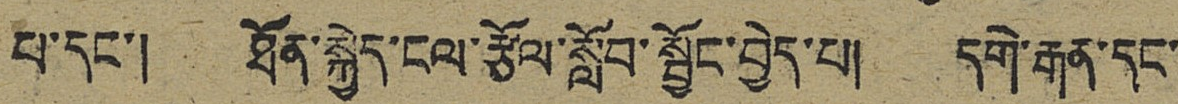པ་དང་། ཐོན་སྐྱེད་ངལ་རྩོལ་སློབ་སྦྱོང་བྱེད་པ། དགེ་རྒན་དང་
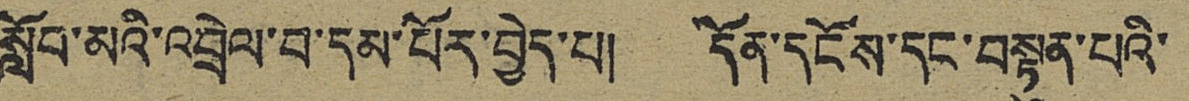སློབ་མའི་འབྲེལ་བ་དམ་པོར་བྱེད་པ། དོན་དངོས་དང་བསྟུན་པའི་
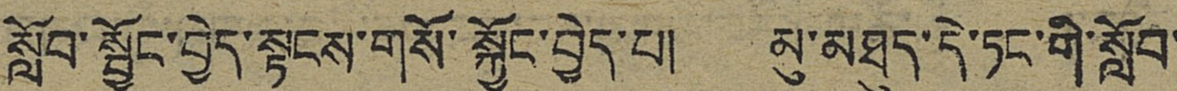སློབ་སྦྱོང་བྱེད་སྟངས་གསོ་སྐྱོང་བྱེད་པ། མུ་མཐུད་དེ་ཏང་གི་སློབ་
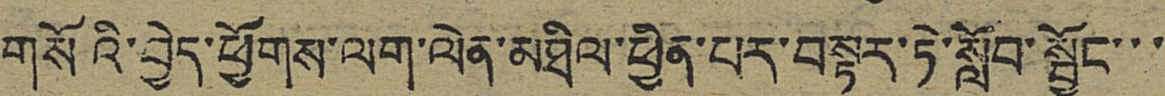གསོའི་བྱེད་ཕྱོགས་ལག་ལེན་མཐིལ་ཕྱིན་པར་བསྟར་ཏེ་སློབ་སྦྱོང་་་
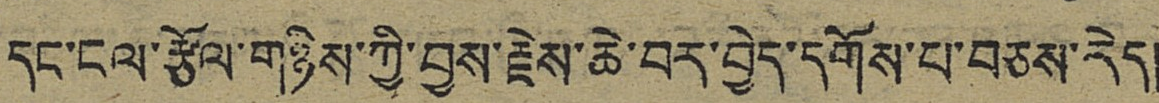དང་ངལ་རྩོལ་གཉིས་ཀྱི་བྱས་རྗེས་ཆེ་བར་བྱེད་དགོས་པ་བཅས་རེད།
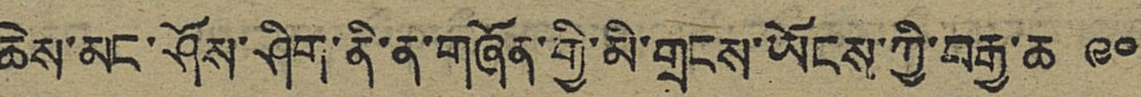ཆེས་མང་ཤོས་ཤིག་ནི་ན་གཞོན་གྱི་མི་གྲངས་ཡོངས་ཀྱི་བརྒྱ་ཆ ༩༠
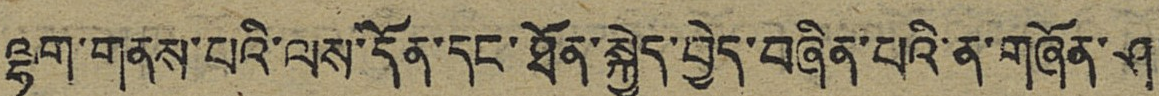ལྷག་གནས་པའི་ལས་དོན་དང་ཐོན་སྐྱེད་བྱེད་བཞིན་པའི་ན་གཞོན་ཤ་
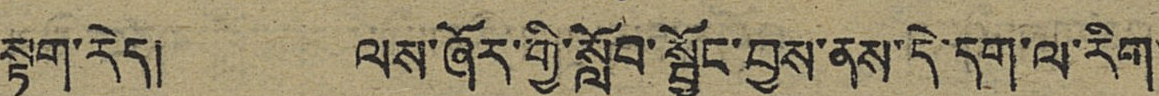སྟག་རེད། ལས་ཞོར་གྱི་སློབ་སྦྱོང་བྱས་ནས་དེ་དག་ལ་རིག་
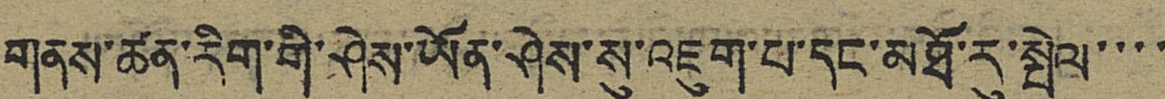གནས་ཚན་རིག་གི་ཤེས་ཡོན་ཤེས་སུ་འཇུག་པ་དང་མཐོ་རུ་སྤེལ་་་་
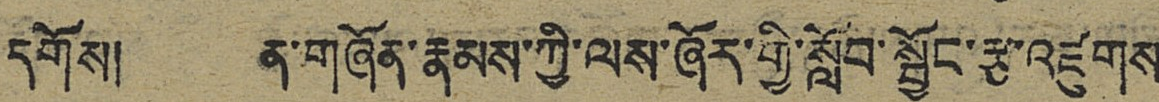དགོས། ན་གཞོན་རྣམས་ཀྱི་ལས་ཞོར་གྱི་སློབ་སྦྱོང་རྩ་འཛུགས་
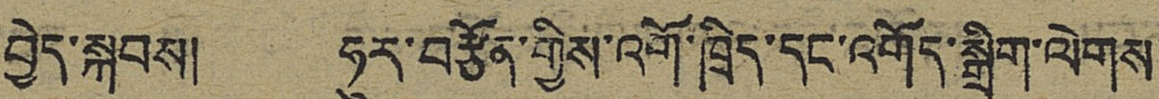བྱེད་སྐབས། ཧུར་བརྩོན་གྱིས་འགོ་ཁྲིད་དང་འགོད་སྒྲིག་ལེགས་
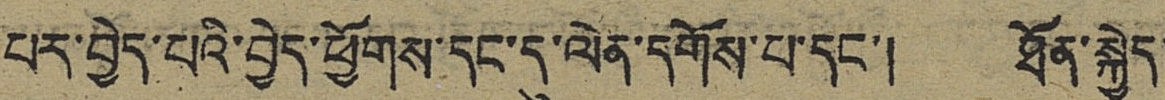པར་བྱེད་པའི་བྱེད་ཕྱོགས་དང་དུ་ལེན་དགོས་པ་དང་། ཐོན་སྐྱེད་
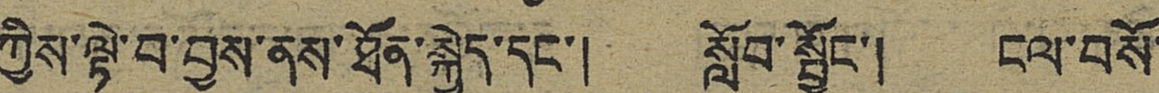ཀྱིས་ལྟེ་བ་བྱས་ནས་ཐོན་སྐྱེད་དང་། སློབ་སྦྱོང་། ངལ་བསོ་
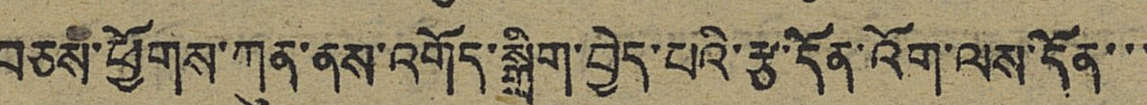བཅས་ཕྱོགས་ཀུན་ནས་འགོད་སྒྲིག་བྱེད་པའི་རྩ་དོན་འོག་ལས་དོན་་་
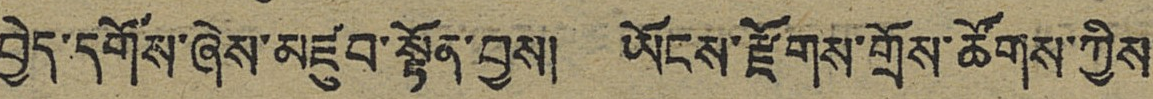བྱེད་དགོས་ཞེས་མཛུབ་སྟོན་བྱས། ཡོངས་རྫོགས་གྲོས་ཚོགས་ཀྱིས་
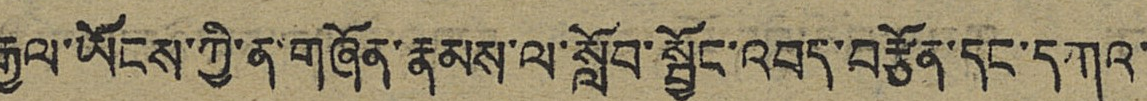རྒྱལ་ཡོངས་ཀྱི་ན་གཞོན་རྣམས་ལ་སློབ་སྦྱོངས་འབད་བརྩོན་དང་དཀའ་
